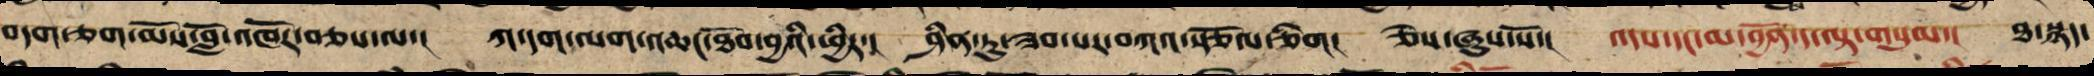བདག་ཅག་མོས་བློ་འཁོར་བཅས་ལ་། ཀ་དག་ལག་འཆང་ཐོབ་བྱའི་ཕྱིར་། ཤིན་ཏུ་ཟབ་པར་བཀའ་སྩོལ་ཅིག། ཅེས་ཞུས་སོ་། འདས་དང་མ་བྱོན་ད་ལྟ་གསུམ་། ཐ་སྙད་
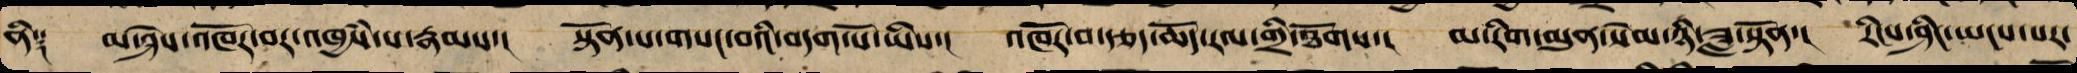ནི༑ མ་ཤེས་འཁོར་བར་འཁྱཾས་པ་རྣམས་། སྟོན་པ་གསང་བའི་བདག་པོ་ཡིས་། འཁོར་བ་རྩད་གཅོད་རལ་གྲི་ཐོགས་། མ་རིག་མུན་སེལ་ཉི་ཟླ་སྟོན་། རིངས་ཤིང་ཡངས་པར་
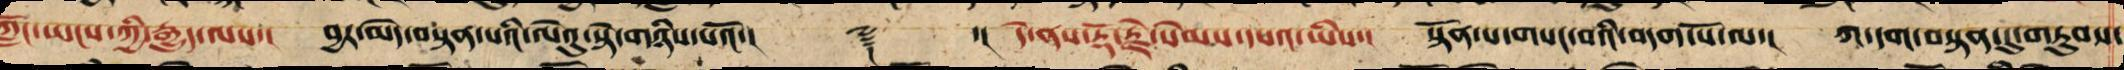ཀློང་ཡངས་ཀྱི་རྒྱུད་ལས་། བྱར་མེད་བསྟན་པའི་ལེའུ་སྟེ་གཉིས་པའོ་།། ༈ ་། དེ་ནས་རྡོ་རྗེ་སེམས་དཔའ་ཡིས་། སྟོན་པ་གསང་བའི་བདག་པོ་ལ་། ཀ་དག་བསྟན་དུ་བཏུབས་
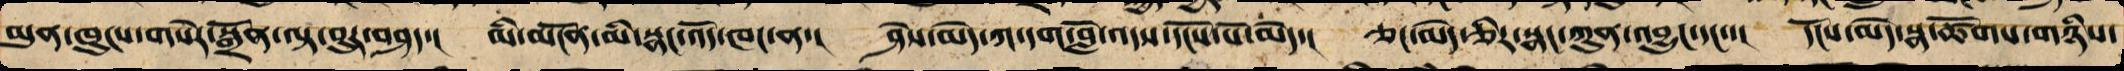མུན་ཁུངས་གསལ་སྒྲོན་ལྟ་བུར་བཤད་། མི་མངོན་མི་སྣང་འོད་ཁང་ན་། ཤེས་མེད་ཀ་དག་བློ་འདས་དངོས་པོ་མེད་། ཅང་མེད་ཅིར་སྣང་ཀུན་འབྱུང་དང་་། དངོས་མེད་སྣ་ཚོགས་གཉིས་
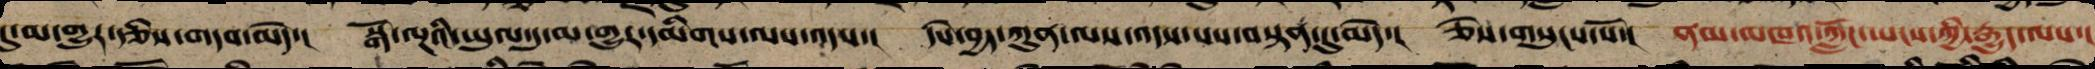དུ་མ་གྱུར་་རྩིས་གདབ་མེད་། སྒོ་ལྔའི་ཡུལ་དུ་མ་གྱུར་དམིགས་ལས་འདས་། དཔེ་བྱད་ཀུན་ལས་འདས་པས་བསྟན་དུ་མེད་། ཅེས་གསུངས་སོ་། ནམ་མཁའ་ཀློང་ཡངས་ཀྱི་རྒྱུད་ལས་།
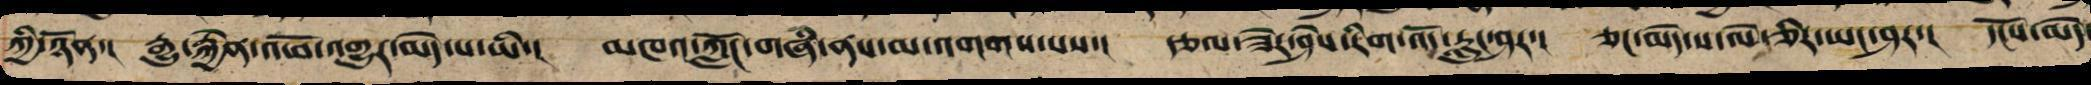ཀྱིས་ཉོན་། རྒྱུ་རྐྱེན་འཕོ་འགྱུར་མེད་པ་ཡི་། མཁའ་ཀློང་གཞི་ནས་མ་འགགས་པས་། རྩལ་ཟེར་ཤེས་རིག་འོད་རླུང་ཤར་། ཅང་མེད་ས་ལེ་ཅིར་ཡང་ཤར་། དངོས་མེད
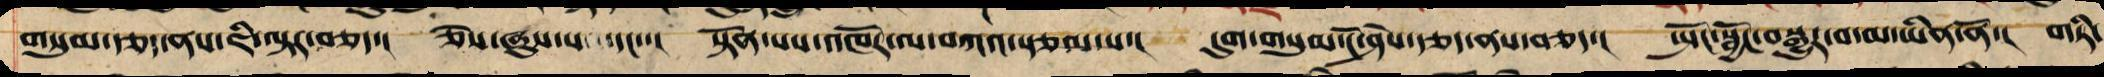གསུམ་རྩད་ནས་ཇི་ལྟར་གཅད་། ཅེས་ཞུས་པ་དང་་། སྟོན་པས་འཁོར་ལ་བཀའ་སྩལ་པ་། དུག་གསུམ་ངོ་ཤེས་རྩད་ནས་བཅད་། སྤོང་སྦྱོང་བསྒྱུར་བ་མ་ཡིན་ནོ་། གཏི་
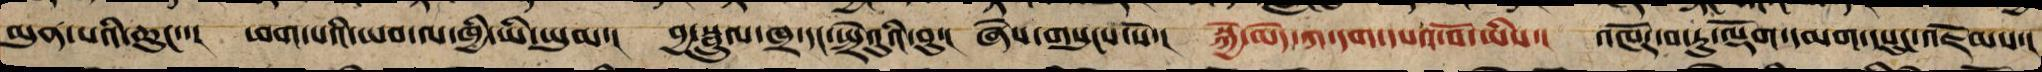མུན་པའི་ཆུང་་། ཕག་པའི་ཡབ་ལ་ཁྱི་ཡི་ཡུམ་། བྱ་སྤྲུལ་ཁྲ་དང་སྤྲེའུའི་བུ་། ཞེས་གསུངས་སོ་། སྐྱེ་མེད་ཀ་དག་དཔའ་བོ་ཡིས་། འཁོར་བའི་རུ་ལྡོག་དམག་དཔུང་འཇོམས་།
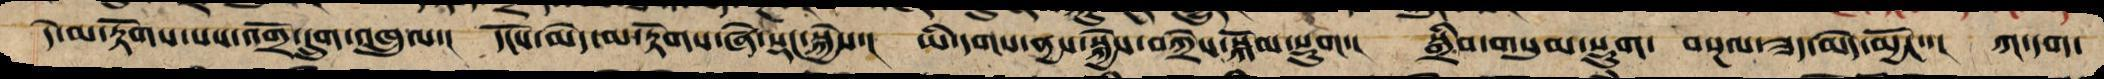དེ་མ་རྟོགས་པས་འགྲོ་དྲུག་འཁྲུལ་། དངོས་མེད་མ་རྟོགས་ཞེ་སྡང་སྐྱེས་། ཡི་དགས་གནས་སྐྱེས་བཀྲེས་སྐོམ་སྡུག། སྒྲིབ་གསུམ་སྡུག་བསྔལ་ཟད་མེད་མྱོང་་། ཀ་དག་
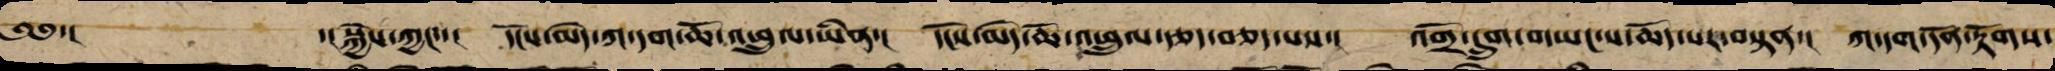༄༅་།  ་།སྐྱེས་ཀྱང་་། དངོས་མེད་ཀ་དག་ཆོ་འཕྲུལ་ཡིན་། དངོས་མེད་ཆོ་འཕྲུལ་རྩད་བཅད་པས་། འགྲོ་དྲུག་གཡང་ས་ཆོད་པར་བསྟན་། ཀ་དག་དོན་རྟོགས་
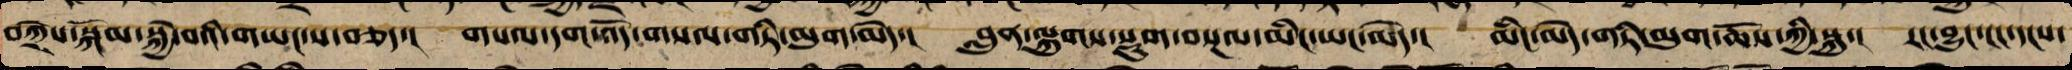བཀྲེས་སྐོམ་སྐྱེ་བའི་གཡང་ས་གཅད་། གསལ་དག་འོད་གསལ་གཏི་མུག་མེད་། བླུན་ལྐུགས་སྡུག་བསྔལ་མིང་ཡང་མེད་། མིང་མེད་གཏི་མུག་ཆོས་ཀྱི་སྐུ་། རང་བྱུང་ངང་དངས་
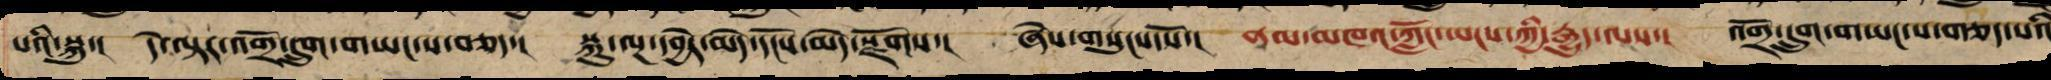པའི་སྐུ་། དེ་ལྟར་འགྲོ་དྲུག་གཡང་ས་གཅད་། སྐུ་ལྔ་དབྱེར་མེད་དངོས་མེད་སྫོགས་། ཞེས་གསུངས་སོ་། ནམ་མཁའ་ཀློང་ཡངས་ཀྱི་རྒྱུད་ལས་། འགྲོ་དྲུག་གཡང་ས་གཅད་པའི
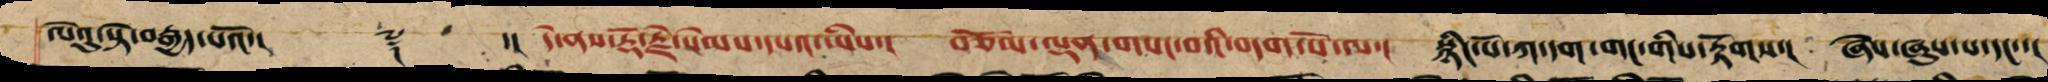ལེའུ་སྟེ་བརྒྱད་པའོ་།། ༈ ་། དེ་ནས་རྡོ་རྗེ་སེམས་དཔའ་ཡིས་། བཅོམ་ལྡན་གསང་བའི་བདག་པོ་ལ་། སྙིང་པོ་ཀ་དག་གང་གིས་རྟོགས་། ཞེས་ཞུས་པ་དང་་།
